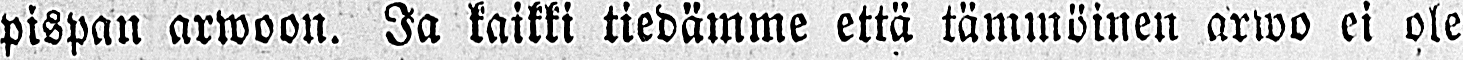pispan arwoon. Ja kaikki tiedämme että tämmöinen arwo ei ole
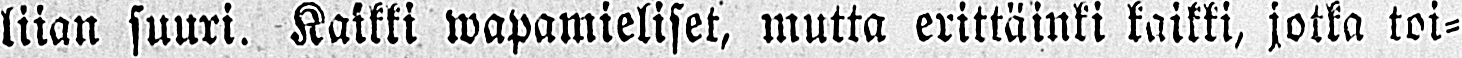liian suuri. Kaikki wapamieliset, mutta erittäinki kaikki, jotka toi-
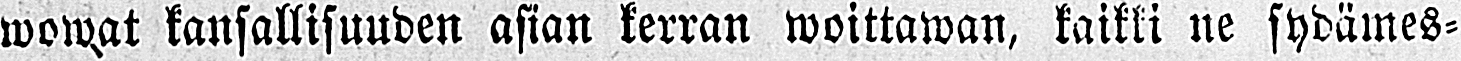wowat kansallisuuden asian kerran woittawan, kaikki ne sydämes-
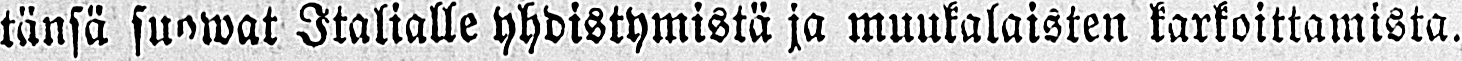tänsä suowat Italialle yhdistymistä ja muukalaisten karkoittamista.
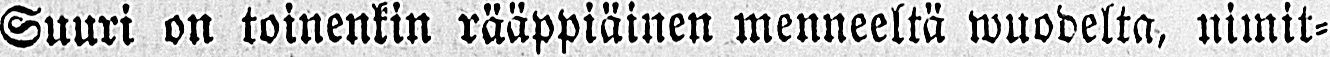Suuri on toinenkin rääppiäinen menneeltä wuodelta, nimit-
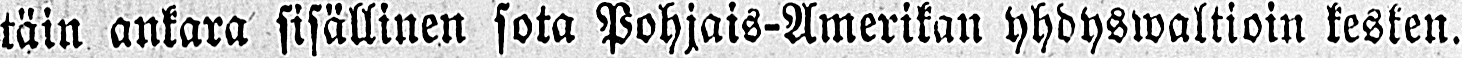täin ankara sisällinen sota Pohjais-Amerikan yhdyswaltioin kesken.
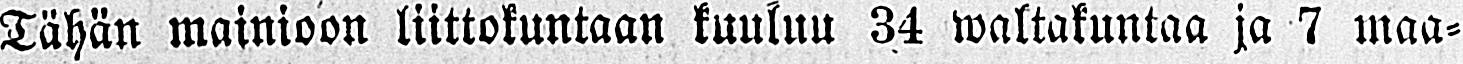Tähän mainioon liittokuntaan kuuluu 34 waltakuntaa ja 7 maa-
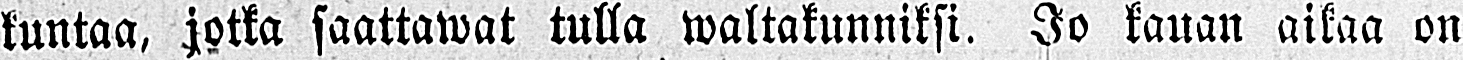kuntaa, jotka saattawat tulla waltakunniksi. Jo kauan aikaa on
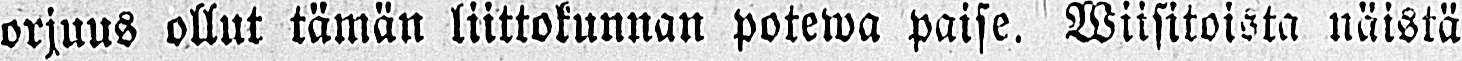orjuus ollut tämän liittokunnan potewa paise. Wiisitoista näistä
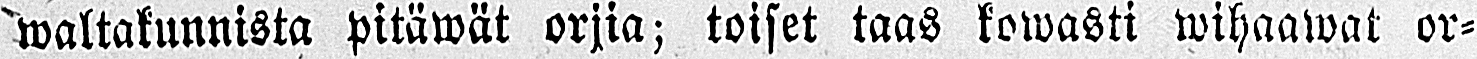waltakunnista pitäwät orjia; toiset taas kowasti wihaawat or-
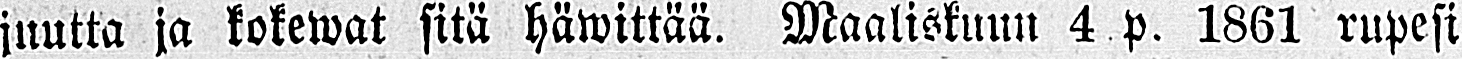juutta ja kokewat sitä häwittää. Maaliskuun 4 p. 1861 rupesi
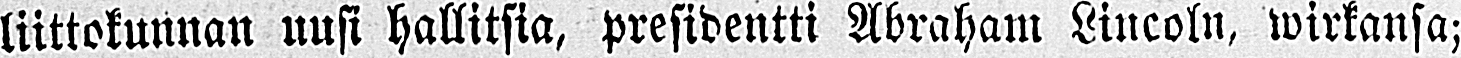liittokunnan uusi hallitsia, presidentti Abraham Lincoln, wirkansa;
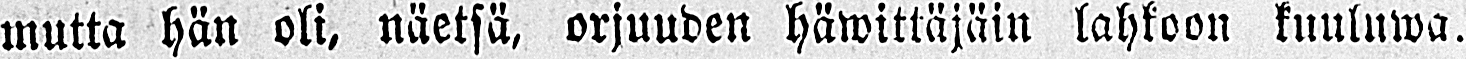mutta hän oli, näetsä, orjuuden häwittäjäin lahkoon kuuluwa.
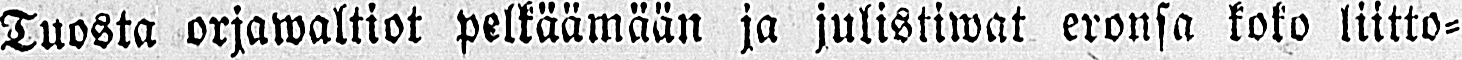Tuosta orjawaltiot pelkäämään ja julistiwat eronsa koko liitto-
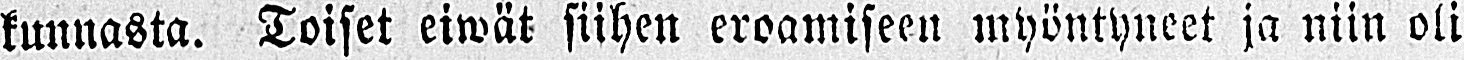kunnasta. Toiset eiwät siihen eroamiseen myöntyneet ja niin oli
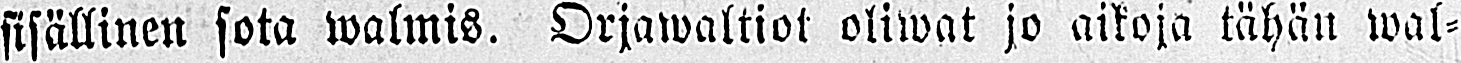sisällinen sota walmis. Orjawaltiot oliwat jo aikoja tähän wal-
